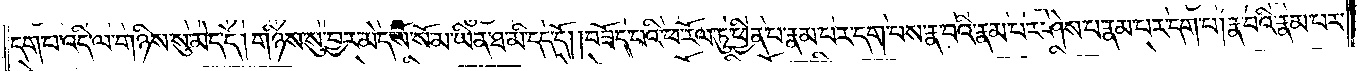དག་པ་འདི་ལ་གཉིས་སུ་མེད་དེ། གཉིས་སུ་བྱར་མེད་སོ་སོ་མ་ཡིན་ཐ་མི་དད་དོ། །བཟོད་པའི་ཕ་རོལ་ཏུ་ཕྱིན་པ་རྣམ་པར་དག་པས་རྣ་བའི་རྣམ་པར་ཤེས་པ་རྣམ་པར་དག་པ། རྣ་བའི་རྣམ་པར་
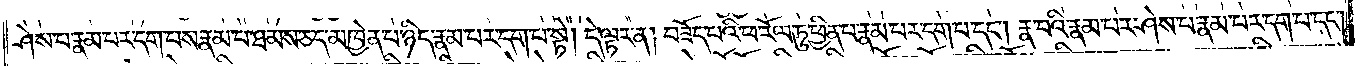ཤེས་པ་རྣམ་པར་དག་པས་རྣམ་པ་ཐམས་ཅད་མཁྱེན་པ་ཉིད་རྣམ་པར་དག་པ་སྟེ། དེ་ལྟར་ན། བཟོད་པའི་ཕ་རོལ་ཏུ་ཕྱིན་པ་རྣམ་པར་དག་པ་དང༌། རྣ་བའི་རྣམ་པར་ཤེས་པ་རྣམ་པར་དག་པ་དང༌།
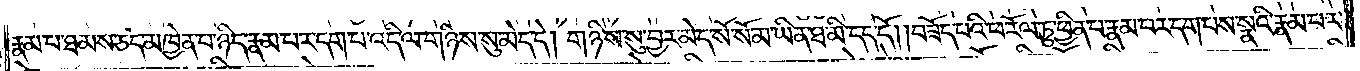རྣམ་པ་ཐམས་ཅད་མཁྱེན་པ་ཉིད་རྣམ་པར་དག་པ་འདི་ལ་གཉིས་སུ་མེད་དེ། གཉིས་སུ་བྱར་མེད་སོ་སོ་མ་ཡིན་ཐ་མི་དད་དོ། །བཟོད་པའི་ཕ་རོལ་ཏུ་ཕྱིན་པ་རྣམ་པར་དག་པས་སྣའི་རྣམ་པར་
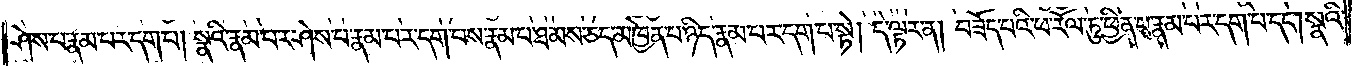ཤེས་པ་རྣམ་པར་དག་པ། སྣའི་རྣམ་པར་ཤེས་པ་རྣམ་པར་དག་པས་རྣམ་པ་ཐམས་ཅད་མཁྱེན་པ་ཉིད་རྣམ་པར་དག་པ་སྟེ། དེ་ལྟར་ན། བཟོད་པའི་ཕ་རོལ་ཏུ་ཕྱིན་པ་རྣམ་པར་དག་པ་དང༌། སྣའི་
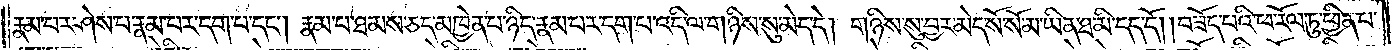རྣམ་པར་ཤེས་པ་རྣམ་པར་དག་པ་དང༌། རྣམ་པ་ཐམས་ཅད་མཁྱེན་པ་ཉིད་རྣམ་པར་དག་པ་འདི་ལ་གཉིས་སུ་མེད་དེ། གཉིས་སུ་བྱར་མེད་སོ་སོ་མ་ཡིན་ཐ་མི་དད་དོ། །བཟོད་པའི་ཕ་རོལ་ཏུ་ཕྱིན་པ་
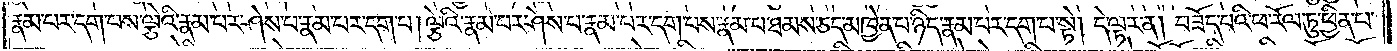རྣམ་པར་དག་པས་ལྕེའི་རྣམ་པར་ཤེས་པ་རྣམ་པར་དག་པ། ལྕེའི་རྣམ་པར་ཤེས་པ་རྣམ་པར་དག་པས་རྣམ་པ་ཐམས་ཅད་མཁྱེན་པ་ཉིད་རྣམ་པར་དག་པ་སྟེ། དེ་ལྟར་ན། བཟོད་པའི་ཕ་རོལ་ཏུ་ཕྱིན་པ་
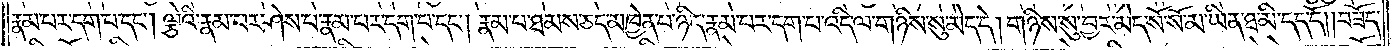རྣམ་པར་དག་པ་དང༌། ལྕེའི་རྣམ་པར་ཤེས་པ་རྣམ་པར་དག་པ་དང༌། རྣམ་པ་ཐམས་ཅད་མཁྱེན་པ་ཉིད་རྣམ་པར་དག་པ་འདི་ལ་གཉིས་སུ་མེད་དེ། གཉིས་སུ་བྱར་མེད་སོ་སོ་མ་ཡིན་ཐ་མི་དད་དོ། །བཟོད་
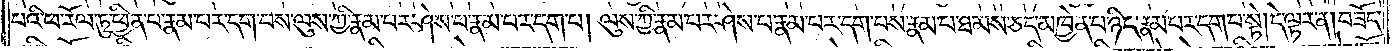པའི་ཕ་རོལ་ཏུ་ཕྱིན་པ་རྣམ་པར་དག་པས་ལུས་ཀྱི་རྣམ་པར་ཤེས་པ་རྣམ་པར་དག་པ། ལུས་ཀྱི་རྣམ་པར་ཤེས་པ་རྣམ་པར་དག་པས་རྣམ་པ་ཐམས་ཅད་མཁྱེན་པ་ཉིད་རྣམ་པར་དག་པ་སྟེ། དེ་ལྟར་ན། བཟོད་
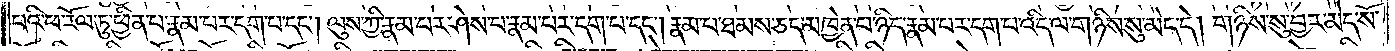པའི་ཕ་རོལ་ཏུ་ཕྱིན་པ་རྣམ་པར་དག་པ་དང༌། ལུས་ཀྱི་རྣམ་པར་ཤེས་པ་རྣམ་པར་དག་པ་དང༌། རྣམ་པ་ཐམས་ཅད་མཁྱེན་པ་ཉིད་རྣམ་པར་དག་པ་འདི་ལ་གཉིས་སུ་མེད་དེ། གཉིས་སུ་བྱར་མེད་སོ་
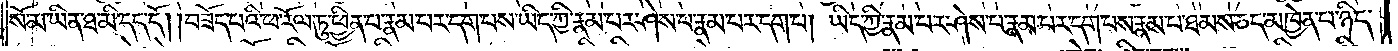སོ་མ་ཡིན་ཐ་མི་དད་དོ། །བཟོད་པའི་ཕ་རོལ་ཏུ་ཕྱིན་པ་རྣམ་པར་དག་པས་ཡིད་ཀྱི་རྣམ་པར་ཤེས་པ་རྣམ་པར་དག་པ། ཡིད་ཀྱི་རྣམ་པར་ཤེས་པ་རྣམ་པར་དག་པས་རྣམ་པ་ཐམས་ཅད་མཁྱེན་པ་ཉིད་
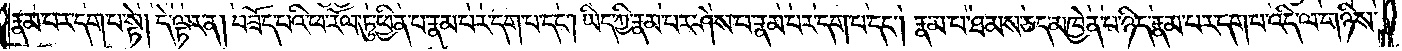རྣམ་པར་དག་པ་སྟེ། དེ་ལྟར་ན། བཟོད་པའི་ཕ་རོལ་ཏུ་ཕྱིན་པ་རྣམ་པར་དག་པ་དང༌། ཡིད་ཀྱི་རྣམ་པར་ཤེས་པ་རྣམ་པར་དག་པ་དང༌། རྣམ་པ་ཐམས་ཅད་མཁྱེན་པ་ཉིད་རྣམ་པར་དག་པ་འདི་ལ་གཉིས་
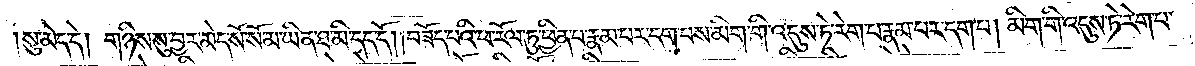སུ་མེད་དེ། གཉིས་སུ་བྱར་མེད་སོ་སོ་མ་ཡིན་ཐ་མི་དད་དོ། །བཟོད་པའི་ཕ་རོལ་ཏུ་ཕྱིན་པ་རྣམ་པར་དག་པས་མིག་གི་འདུས་ཏེ་རེག་པ་རྣམ་པར་དག་པ། མིག་གི་འདུས་ཏེ་རེག་པ་
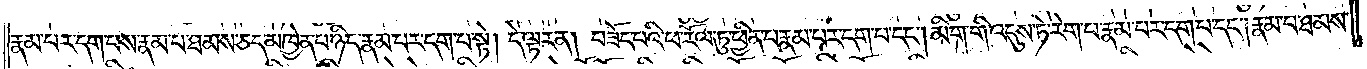རྣམ་པར་དག་པས་རྣམ་པ་ཐམས་ཅད་མཁྱེན་པ་ཉིད་རྣམ་པར་དག་པ་སྟེ། དེ་ལྟར་ན། བཟོད་པའི་ཕ་རོལ་ཏུ་ཕྱིན་པ་རྣམ་པར་དག་པ་དང༌། མིག་གི་འདུས་ཏེ་རེག་པ་རྣམ་པར་དག་པ་དང༌། རྣམ་པ་ཐམས་
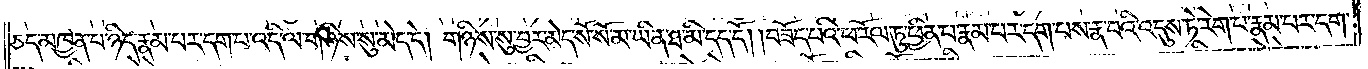ཅད་མཁྱེན་པ་ཉིད་རྣམ་པར་དག་པ་འདི་ལ་གཉིས་སུ་མེད་དེ། གཉིས་སུ་བྱར་མེད་སོ་སོ་མ་ཡིན་ཐ་མི་དད་དོ། །བཟོད་པའི་ཕ་རོལ་ཏུ་ཕྱིན་པ་རྣམ་པར་དག་པས་རྣ་བའི་འདུས་ཏེ་རེག་པ་རྣམ་པར་དག་
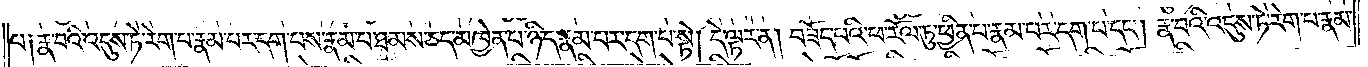པ༑ རྣ་བའི་འདུས་ཏེ་རེག་པ་རྣམ་པར་དག་པས་རྣམ་པ་ཐམས་ཅད་མཁྱེན་པ་ཉིད་རྣམ་པར་དག་པ་སྟེ། དེ་ལྟར་ན། བཟོད་པའི་ཕ་རོལ་ཏུ་ཕྱིན་པ་རྣམ་པར་དག་པ་དང༌། རྣ་བའི་འདུས་ཏེ་རེག་པ་རྣམ་
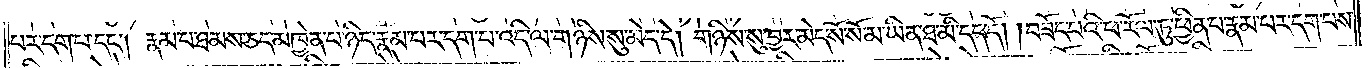པར་དག་པ་དང༌། རྣམ་པ་ཐམས་ཅད་མཁྱེན་པ་ཉིད་རྣམ་པར་དག་པ་འདི་ལ་གཉིས་སུ་མེད་དེ། གཉིས་སུ་བྱར་མེད་སོ་སོ་མ་ཡིན་ཐ་མི་དད་དོ། །བཟོད་པའི་ཕ་རོལ་ཏུ་ཕྱིན་པ་རྣམ་པར་དག་པས་
